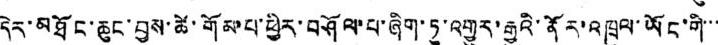དེར་མཐོང་ཆུང་བྱས་ཚེ་གོམ་པ་ཕྱིར་བཤོལ་པ་ཞིག་ཏུ་འགྱུར་རྒྱུའི་ནོར་འཁྲུལ་ཡོང་གི་་་
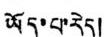ཡོད་པ་རེད།
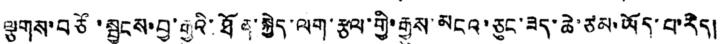ལྕགས་བཙོ་སྦྱངས་བྱ་རྒྱུའི་ཐོན་སྐྱེད་ལག་རྩལ་གྱི་རྒྱུས་མངའ་ཅུང་ཟད་ཆེ་ཙམ་ཡོད་པ་རེད།
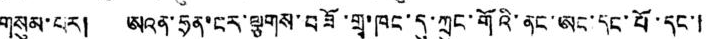གསུམ་པར། ཨའན་ཧྲན་ངར་ལྕགས་བཟོ་གྲྭ་ཁང་དུ་ཀྲུང་གོའི་ནང་ཨང་དང་པོ་དང་།
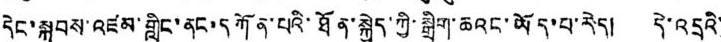དེང་སྐབས་འཛམ་གླིང་ནང་དཀོན་པའི་ཐོན་སྐྱེད་ཀྱི་སྒྲིག་ཆའང་ཡོད་པ་རེད། དེ་འདྲའི་
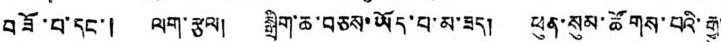བཟོ་པ་དང་། ལག་རྩལ། སྒྲིག་ཆ་བཅས་ཡོད་པ་མ་ཟད། ཕུན་སུམ་ཚོགས་པའི་རྒྱུ་
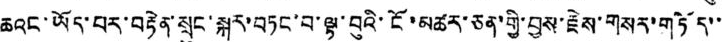ཆའང་ཡོད་པར་བརྟེན་སྲུང་སྐར་བཏང་བ་ལྟ་བུའི་ངོ་མཚར་ཅན་གྱི་བྱས་རྗེས་གསར་གཏོད་་
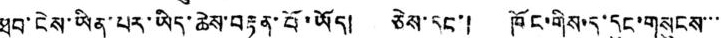ཐུབ་ངེས་ཡིན་པར་ཡིད་ཆེས་བརྟན་པོ་ཡོད། ཅེས་དང་། ཁོང་གིས་ད་དུང་གསུངས་་་
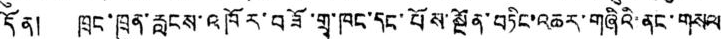དོན། ཁྲང་ཁྲུན་རླངས་འཁོར་བཟོ་གྲྭ་ཁང་དང་པོས་སྔོན་བཏིང་འཆར་གཞིའི་ནང་གསལ
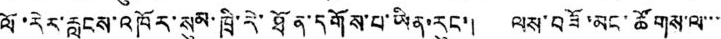ལོ་རེར་རླངས་འཁོར་སུམ་ཁྲི་རེ་ཐོན་དགོས་པ་ཡིན་རུང་། ལས་བཟོ་མང་ཚོགས་ལ་་་
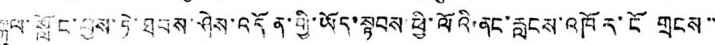སྐུལ་སློང་བྱས་ཏེ་ཐབས་ཤེས་འདོན་གྱི་ཡོད་སྟབས་ཕྱི་ལོའི་ནང་རླངས་འཁོར་ངོ གྲངས་་
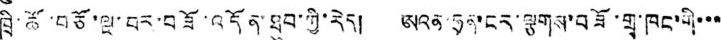ཁྲི་ཚོ་བཙོ་ལྔ་བར་བཟོ་འདོན་ཐུབ་ཀྱི་རེད། ཨའན་ཧྲན་ངར་ལྕགས་བཟོ་གྲྭ་ཁང་གི་་་
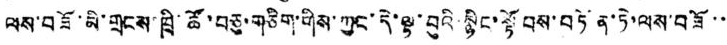ལས་བཟོ་མི་གྲངས་ཁྲི་ཚོ་བཅུ་གཅིག་གིས་ཀྱང་དེ་ལྟ་བུའི་སྙིང་སྟོབས་བཏོན་ཏེ་ལས་བཟོ་་
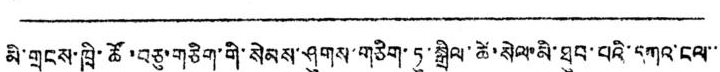མི་གྲངས་ཁྲི་ཚོ་བཅུ་གཅིག་གི་སེམས་ཤུགས་གཅིག་ཏུ་སྒྲིལ་ཚེ་སེལ་མི་ཐུབ་པའི་དཀའ་ངལ་་་
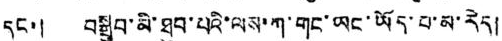དང་། བསྒྲུབ་མི་ཐུབ་པའི་ལས་ཀ་གང་ཡང་ཡོད་པ་མ་རེད།
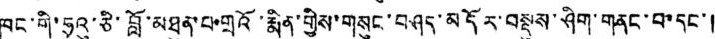ཁང་གི་ཧྲུའུ་ཅི་བློ་མཐུན་པ་གྲའོ་རྨིན་གྱིས་གསུང་བཤད་མདོར་བསྡུས་ཤིག་གནང་བ་དང་།
